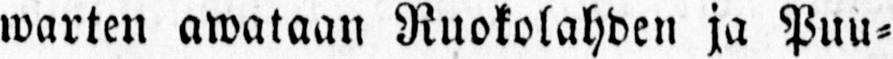warten awataan Ruokolahden ja Puu-
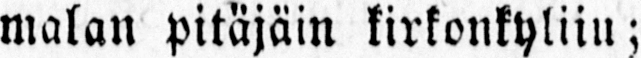malan pitäjäin kirkonkyliin;
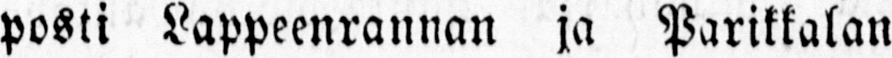posti Lappeenrannan ja Parikkalan
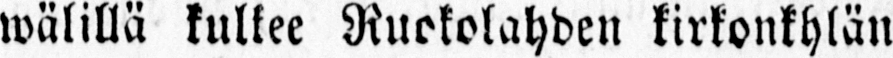wälillä kulkee Ruokolahden kirkonkylän
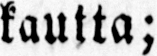kautta;
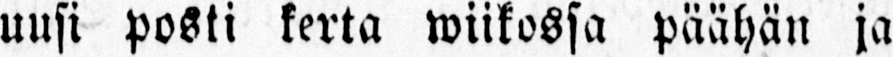uusi posti kerta wiikossa päähän ja
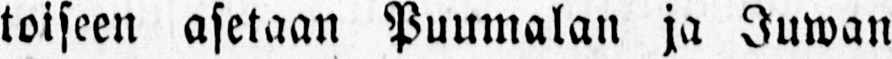toiseen asetaan Puumalan ja Juwan
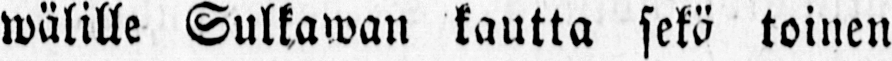wälille Sulkawan kautta sekö toinen
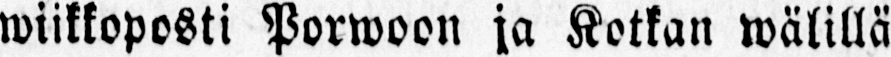wiikkoposti Porwoon ja Kotkan wälillä
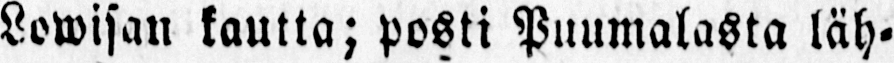Lowisan kautta; posti Puumalasta läh-
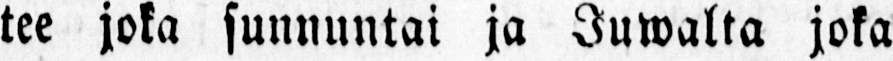tee joka sunnuntai ja Juwalta joka
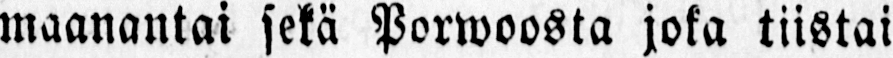maanantai sekä Porwoosta joka tiistai
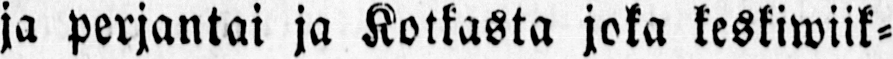ja perjantai ja Kotkasta joka keskiwiik-
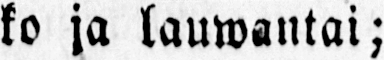ko ja lauwantai;
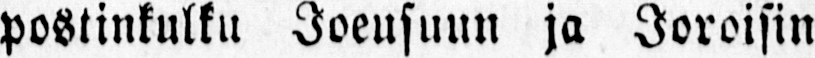postinkulku Joeusuun ja Joroisin
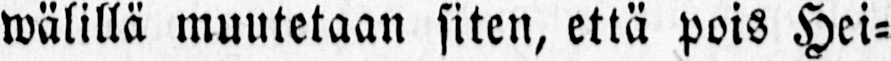wälillä muutetaan siten, että pois Hei-
